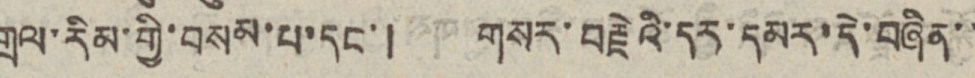གྲལ་རིམ་གྱི་བསམ་པ་དང་། གསར་བརྗེའི་དར་དམར་དེ་བཞིན་་
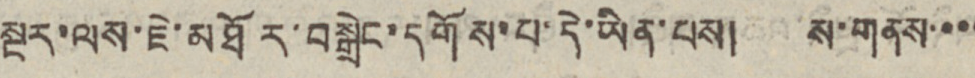སྔར་ལས་ཇེ་མཐོར་བསྒྲེང་དགོས་པ་དེ་ཡིན་པས། ས་གནས་་་་
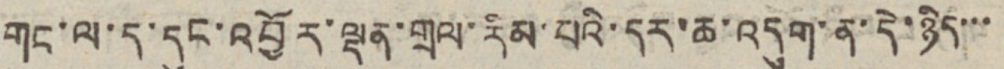གང་ལ་ད་དུང་འབྱོར་ལྡན་གྲལ་རིམ་པའི་དར་ཆ་འདུག་ན་དེ་ཉིད་་་
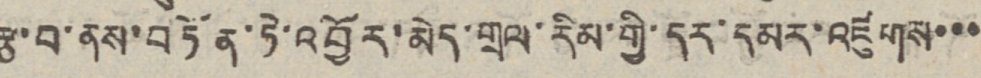རྩ་བ་ནས་བཏོན་ཏེ་འབྱོར་མེད་གྲལ་རིམ་གྱི་དར་དམར་འཛུགས་་་
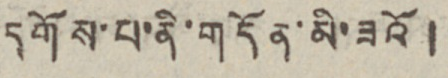དགོས་པ་ནི་གདོན་མི་ཟའོ།
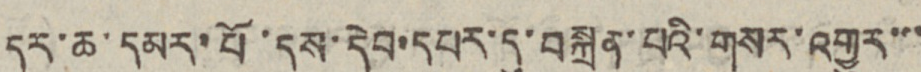དར་ཆ་དམར་པོ་དུས་དེབ་དཔར་དུ་བསྐྲུན་པའི་གསར་འགྱུར་་་
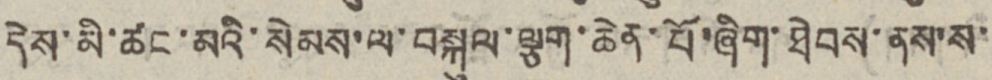དེས་མི་ཚང་མའི་སེམས་ལ་བསྐུལ་ལྕག་ཆེན་པོ་ཞིག་ཐེབས་ནས་ས་
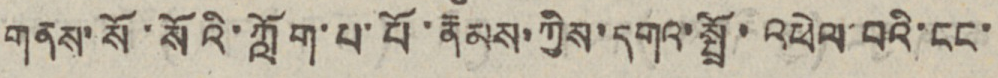གནས་སོ་སོའི་ཀློག་པ་པོ་རྣམས་ཀྱིས་དགའ་སྤྲོ་འཕེལ་བའི་ངང་
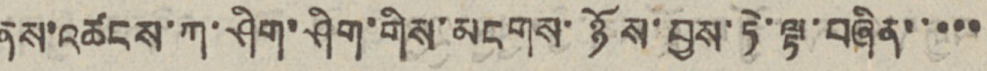ནས་འཚངས་ཀ་ཤིག་ཤིག་གིས་མངགས་ཉོས་བྱས་ཏེ་ལྟ་བཞིན་་་་་
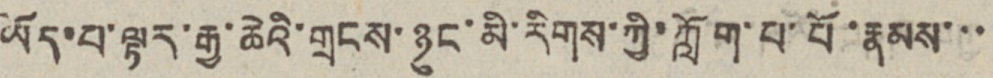ཡོད་པ་ལྟར་རྒྱ་ཆེའི་གྲངས་ཉུང་མི་རིགས་ཀྱི་ཀློག་པ་པོ་རྣམས་་་
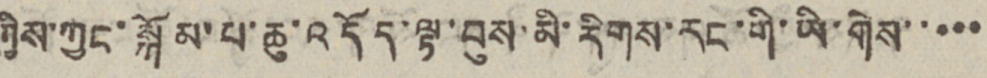ཀྱིས་ཀྱང་སྐོམ་པ་ཆ་འདོད་ལྟ་བུས་མི་རིགས་རང་གི་ཡི་གིས་་་་་
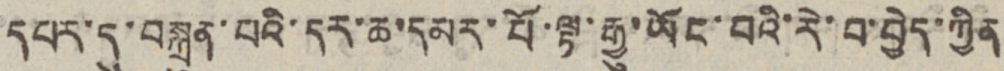དཔར་དུ་བསྐྲུན་པའི་དར་ཆ་དམར་པོ་ལྟ་རྒྱུ་ཡོང་བའི་རེ་བ་བྱེད་ཀྱིན
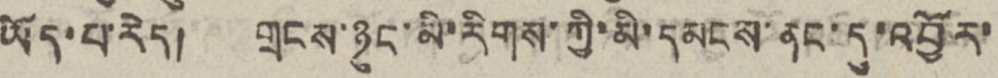ཡོད་པ་རེད། གྲངས་ཉུང་མི་རིགས་ཀྱི་མི་དམངས་ནང་དུ་འབྱོར་
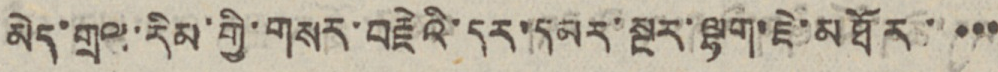མེད་གྲལ་རིམ་གྱི་གསར་བརྗེའི་དར་དམར་སྔར་ལྷག་ཇེ་མཐོར་་་་་
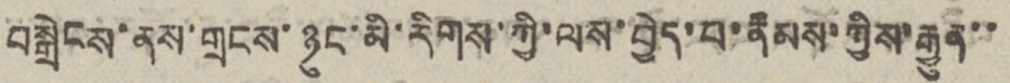བསྒྲེངས་ནས་གྲངས་ཉུང་མི་རིགས་ཀྱི་ལས་བྱེད་པ་རྣམས་ཀྱིས་རྒྱུན་་
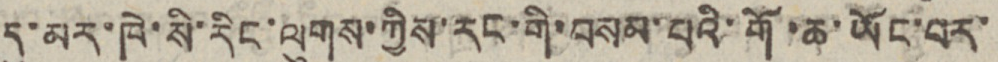དུ་མར་ཁེ་སི་རིང་ལུགས་ཀྱིས་རང་གི་བསམ་པའི་གོ་ཆ་ཡོང་བར་
